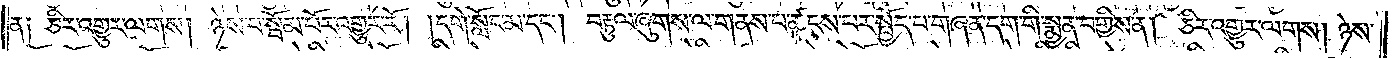ན༑ ཅིར་འགྱུར་ལགས། ཉེས་པ་སྦོམ་པོར་འགྱུར་རོ། །དགེ་སློང་མ་དང༌། བརྟུལ་ཞུགས་ལ་གནས་པ་ཚངས་པར་སྤྱོད་པ་གཞན་དག་གི་སྨྱན་བགྱིས་ན། ཅིར་འགྱུར་ལགས། ཉེས་
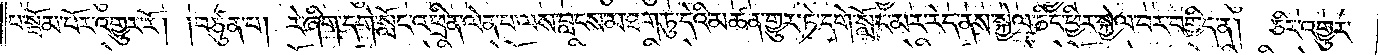པ་སྦོམ་པོར་འགྱུར་རོ། །བཙུན་པ། རེ་ཞིག་དགེ་སློང་འཕྲིན་ལེན་པ་ལས་བླངས་མ་ཐག་ཏུ་དེའི་མཚན་གྱུར་ཏེ་དགེ་སློང་མར་རེད་ནས་སྐྱེལ་ཅིང་ཕྱིར་སྐྱེལ་བར་བགྱིད་ན། ཅིར་འགྱུར་
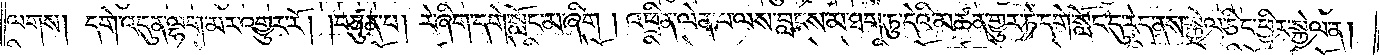ལགས། དགེ་འདུན་ལྷག་མར་འགྱུར་རོ། །བཙུན་པ། རེ་ཞིག་དགེ་སློང་མ་ཞིག། འཕྲིན་ལེན་པ་ལས་བླངས་མ་ཐག་ཏུ་དེའི་མཚན་གྱུར་ཏེ་དགེ་སློང་དུ་རེད་ནས་སྐྱེལ་ཅིང་ཕྱིར་སྐྱེལ་ན།
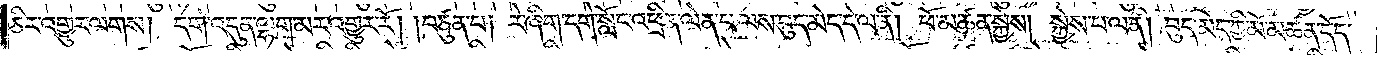ཅིར་འགྱུར་ལགས། དགེ་འདུན་ལྷག་མར་འགྱུར་རོ། །བཙུན་པ། རེ་ཞིག་དགེ་སློང་འཕྲིན་ལེན་པ་ལས་བུད་མེད་དེ་ལ་ནི། ཕོ་མཚན་སྐྱེས། སྐྱེས་པ་ལ་ནི། བུད་མེད་ཀྱི་མོ་མཚན་དོད་
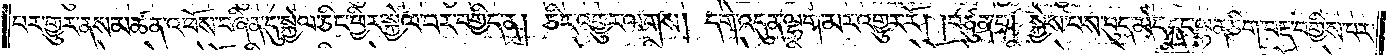པར་གྱུར་ནས་མཚན་འཕོས་བཞིན་དུ་སྐྱེལ་ཅིང་ཕྱིར་སྐྱེལ་བར་བགྱིད་ན། ཅིར་འགྱུར་ལགས། དགེ་འདུན་ལྷག་མར་འགྱུར་རོ། །བཙུན་པ། སྐྱེས་པས་བུད་མེད་དང་ལྷན་ཅིག་བརྡ་བགྱིས་པར་
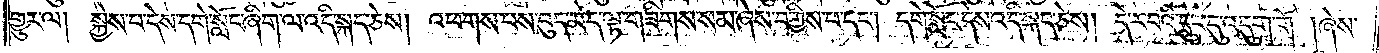གྱུར་ལ། སྐྱེས་པ་དེས་དགེ་སློང་ཞིག་ལ་འདི་སྐད་ཅེས། འཕགས་པས་བུད་མེད་ལྟ་གཟིགས་སམ་ཞེས་བགྱིས་པ་དང༌། དགེ་སློང་དེས་འདི་སྐད་ཅེས། དེ་ར་བའི་དྲུང་དུ་འདུག་གོ །ཞེས་
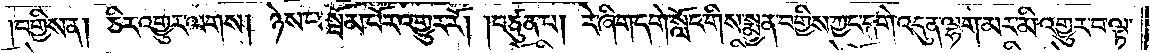།བགྱིས་ན། ཅིར་འགྱུར་ལགས། ཉེས་པ་སྦོམ་པོར་འགྱུར་རོ། །བཙུན་པ། རེ་ཞིག་དགེ་སློང་གིས་སྨྱན་བགྱིས་ཀྱང་དགེ་འདུན་ལྷག་མར་མི་འགྱུར་བ་ལྟ་
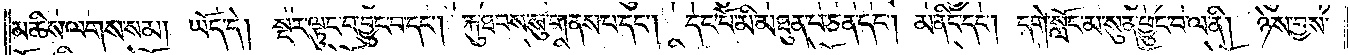མཆིས་ལགས་སམ། ཡོད་དེ། སྔར་ལྟུང་བ་བྱུང་བ་དང༌། རྐུ་ཐབས་སུ་གནས་པ་དང༌། དང་པོ་མི་མཐུན་པ་ཅན་དང༌། མ་ནིང་དང༌། དགེ་སློང་མ་སུན་ཕྱུང་བ་ལ་ནི། ཉེས་བྱས་
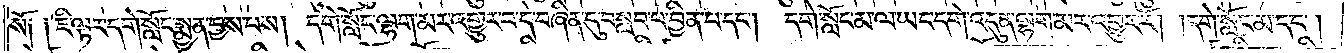སོ༑ ༑ཇི་ལྟར་དགེ་སློང་སྨྱན་བྱས་པས། དགེ་སློང་ལྷག་མར་འགྱུར་བ་དེ་བཞིན་དུ་བསླབ་པ་བྱིན་པ་དང༌། དགེ་སློང་མ་ལ་ཡང་དགེ་འདུན་ལྷག་མར་འགྱུར་རོ། །དགེ་སློབ་མ་དང༌།
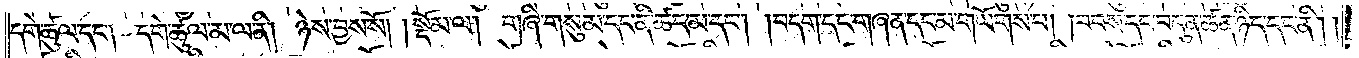དགེ་ཚུལ་དང༌། དགེ་ཚུལ་མ་ལ་ནི། ཉེས་བྱས་སོ།    །སྡོམ་ལ། གཞི་གསུམ་དང་ནི་ཚད་མ་དང༌། བདག་དང་གཞན་དང་མ་གཡོགས་པ། བབས་དང་བདུན་ཚན་ཉིད་དང་ནི། །
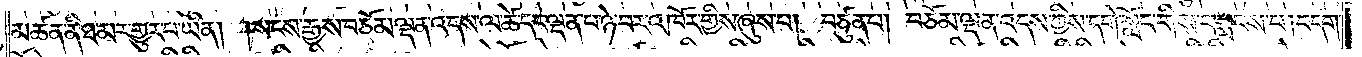མཚན་ནི་ཐ་མར་གྱུར་པ་ཡིན། །སངས་རྒྱས་བཅོམ་ལྡན་འདས་ལ་ཚེ་དང་ལྡན་པ་ཉེ་བར་འཁོར་གྱིས་ཞུས་པ། བཙུན་པ། བཅོམ་ལྡན་འདས་ཀྱིས་དགེ་སློང་གིས་བསླངས་པ། བདག་
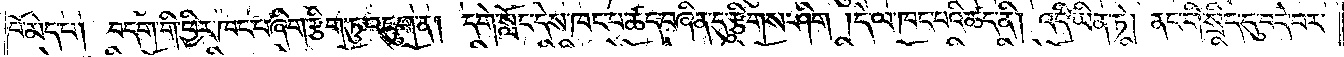པོ་མེད་པ། བདག་གི་ཕྱིར་ཁང་པ་ཞིག་རྩིག་ཏུ་འཇུག་ན། དགེ་སློང་དེས་ཁང་པ་ཚད་བཞིན་དུ་རྩིགས་ཤིག །དེ་ལ་ཁང་པའི་ཚད་ནི། འདི་ཡིན་ཏེ། ནང་གི་སྲིད་དུ་བདེ་བར་
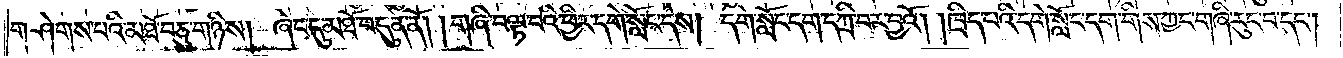གཤེགས་པའི་མཐོ་བཅུ་གཉིས། ཞེང་དུ་མཐོ་བདུན་ནོ། །གཞི་བལྟ་བའི་ཕྱིར་དགེ་སློང་དེས། དགེ་སློང་དག་དཀྲི་བར་བྱའོ། །ཁྲིད་པའི་དགེ་སློང་དག་གིས་ཀྱང་གཞི་རུང་བ་དང༌།
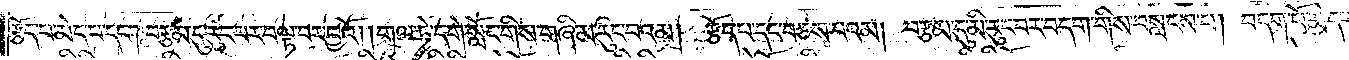རྩོད་པ་མེད་པ་དང༌། བརྩམ་དུ་རུང་བར་བལྟ་བར་བྱའོ། །གལ་ཏེ་དགེ་སློང་གིས་གཞི་མ་རུང་བའམ། རྩོད་པ་དང་བཅས་པའམ། བརྩམ་དུ་མི་རུང་བར་བདག་གིས་བསླངས་པ། བདག་པོ་མེད་པ། །
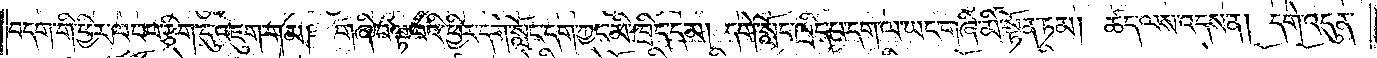བདག་གི་ཕྱིར་ཁང་པ་རྩིག་དུ་འཇུག་གམ། གཞི་བལྟ་བའི་ཕྱིར་དགེ་སློང་དག་ཀྱང་མི་ཁྲིད་དམ། དགེ་སློང་ཁྲིད་པ་དག་ལ་ཡང་གཞི་མི་སྟོན་ཏམ། ཚད་ལས་འདས་ན། དགེ་འདུན་
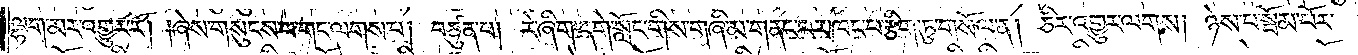ལྷག་མར་འགྱུར་རོ། །ཞེས་གསུངས་པ་གང་ལགས་པ། བཙུན་པ། རེ་ཞིག་དགེ་སློང་གིས་གཞི་མ་གནང་བར་ཁང་པ་རྩིག་ཏུ་གསོལ་ན། ཅིར་འགྱུར་ལགས། ཉེས་པ་སྦོམ་པོར་
